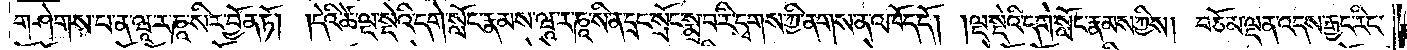གཤེགས་པ་ན་ཝཱ་ར་ཎཱ་སིར་བྱོན་ཏོ། །དེའི་ཚེ་ལྔ་སྡེའི་དགེ་སློང་རྣམས་ཝཱ་ར་ཎཱ་སི་ན་དྲང་སྲོང་སྨྲ་བ་རི་དྭགས་ཀྱི་ནགས་ན་འཁོད་དོ། །ལྔ་སྡེའི་དགེ་སློང་རྣམས་ཀྱིས། བཅོམ་ལྡན་འདས་རྒྱང་རིང་
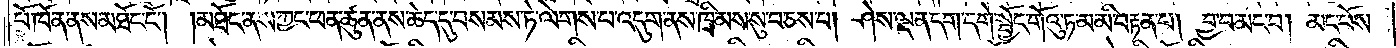པོ་ཁོ་ན་ནས་མཐོང་ངོ༌། །མཐོང་ནས་ཀྱང་ཕན་ཚུན་ནས་ཆེད་དུ་བསམས་ཏེ་ལེགས་པ་འདུག་ནས་ཁྲིམས་སུ་བཅས་པ། ཤེས་ལྡན་དག་དགེ་སྦྱོང་གོའུ་ཏ་མ་མི་བརྟན་པ། བྱ་བ་མང་བ། མང་པོས་
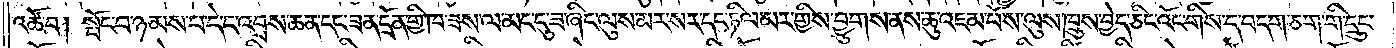འཚོ་བ། སྤོང་བ་ཉམས་པ་དེ་ང་འབྲས་ཆན་དང་ཟན་དྲོན་གྱི་ཁ་ཟས་ལ་མང་དུ་ཟ་ཞིང་ལུས་མར་སར་དང་ཏིལ་མར་གྱིས་བྱུགས་ནས་ཆུ་འཇམ་པོས་ལུས་ཁྲུས་བྱེད་ཅིང་འོང་གིས་ད་བདག་ཅག་གི་དྲུང་
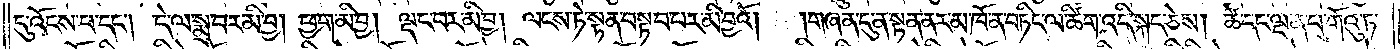དུ་འོངས་པ་དང༌། དེ་ལ་སྨྲ་བར་མི་བྱ། ཕྱག་མི་བྱ། ལྡང་བར་མི་བྱ། ལངས་ཏེ་སྟན་བསྟབ་པར་མི་བྱའོ། །གཞན་དུ་ན་སྟན་ནར་མ་ཁོ་ན་བཏིང་ལ་ཚིག་འདི་སྐད་ཅེས། ཚེ་དང་ལྡན་པ་གོའུ་ཏ་
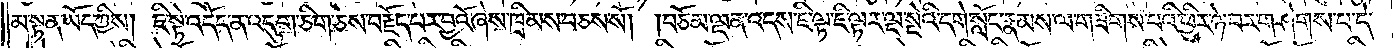མ་སྟན་ཡོད་ཀྱིས། ཇི་སྟེ་འདོད་ན་འདུག་ཅིག་ཅེས་བརྗོད་པར་བྱའོ་ཞེས་ཁྲིམས་བཅས་སོ། །བཅོམ་ལྡན་འདས་ཇི་ལྟ་ཇི་ལྟར་ལྔ་སྡེའི་དགེ་སློང་རྣམས་ལ་གཟིགས་པའི་ཕྱིར་ཉེ་བར་གཤེགས་པ་དེ་
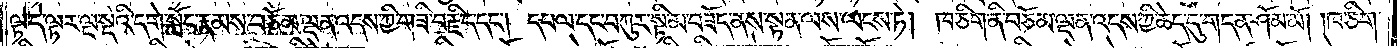ལྟ་དེ་ལྟར་ལྔ་སྡེའི་དགེ་སློང་རྣམས་བཅོམ་ལྡན་འདས་ཀྱི་གཟི་བརྗིད་དང༌། དཔལ་དང་བཀུར་སྟི་མ་བཟོད་ནས་སྟན་ལས་ལངས་ཏེ། ཁ་ཅིག་ནི་བཅོམ་ལྡན་འདས་ཀྱི་ཆེད་དུ་གདན་ཤོམ་མོ། །ཁ་ཅིག་
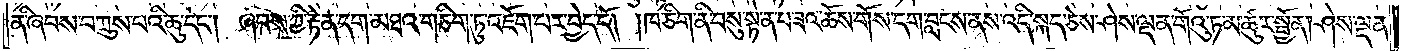ནི་ཞབས་བཀྲུས་པའི་ཆུ་དང༌། ཞབས་ཀྱི་རྟེན་དག་མཐའ་གཅིག་ཏུ་འཇོག་པར་བྱེད་དོ། །ཁ་ཅིག་ནི་བསུ་སྟེ་ན་བཟའ་ཆོས་གོས་དག་བླངས་ནས་འདི་སྐད་ཅེས་ཤེས་ལྡན་གོའུ་ཏ་མ་ཚུར་སྤྱོན། ཤེས་ལྡན་
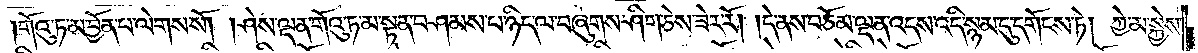།གོའུ་ཏ་མ་བྱོན་པ་ལེགས་སོ། །ཤེས་ལྡན་གོའུ་ཏ་མ་སྟན་བཤམས་པ་ཉིད་ལ་བཞུགས་ཤིག་ཅེས་ཟེར་རོ། །དེ་ནས་བཅོམ་ལྡན་འདས་འདི་སྙམ་དུ་དགོངས་ཏེ། ཀྱེ་མ་སྐྱེས་
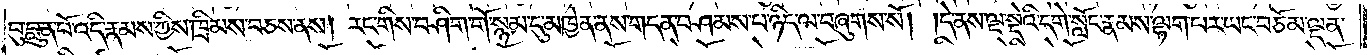བུ་བླུན་པོ་འདི་རྣམས་ཀྱིས་ཁྲིམས་བཅས་ནས། རང་གིས་བཤིག་གོ་སྙམ་དུ་མཁྱེན་ནས་གདན་བཤམས་པ་ཉིད་ལ་བཞུགས་སོ། །དེ་ནས་ལྔ་སྡེའི་དགེ་སློང་རྣམས་ལྷག་པར་ཡང་བཅོམ་ལྡན་
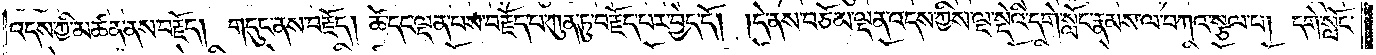འདས་ཀྱི་མཚན་ནས་བརྗོད། གདུང་ནས་བརྗོད། ཚེ་དང་ལྡན་པས་བརྗོད་པ་ཀུན་ཏུ་བརྗོད་པར་བྱེད་དོ། །དེ་ནས་བཅོམ་ལྡན་འདས་ཀྱིས་ལྔ་སྡེའི་དགེ་སློང་རྣམས་ལ་བཀའ་སྩལ་པ། དགེ་སློང་
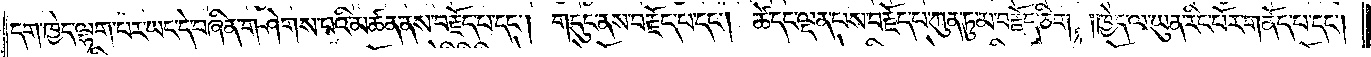དག་ཁྱེད་ལྷག་པར་ཡང་དེ་བཞིན་གཤེགས་པའི་མཚན་ནས་བརྗོད་པ་དང༌། གདུང་ནས་བརྗོད་པ་དང༌། ཚེ་དང་ལྡན་པས་བརྗོད་པ་ཀུན་ཏུ་མ་བརྗོད་ཅིག །ཁྱེད་ལ་ཡུན་རིང་པོར་གནོད་པ་དང༌།
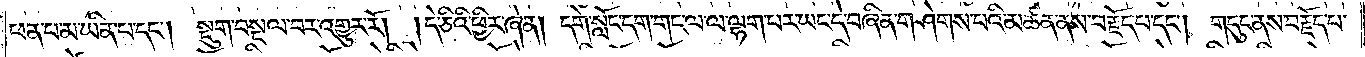ཕན་པ་མ་ཡིན་པ་དང༌། སྡུག་བསྔལ་བར་འགྱུར་རོ། །དེ་ཅིའི་ཕྱིར་ཞེ་ན། དགེ་སློང་དག་གང་ལ་ལ་ལྷག་པར་ཡང་དེ་བཞིན་གཤེགས་པའི་མཚན་ནས་བརྗོད་པ་དང༌། གདུང་ནས་བརྗོད་པ་
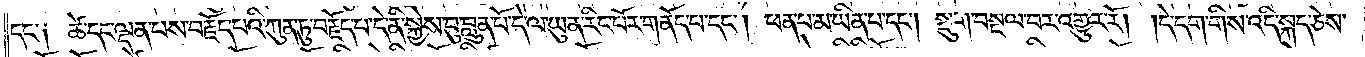དང་༑ ཚེ་དང་ལྡན་པས་བརྗོད་པའི་ཀུན་ཏུ་བརྗོད་པ་དེ་ནི་སྐྱེས་བུ་བླུན་པོ་དེ་ལ་ཡུན་རིང་པོར་གནོད་པ་དང༌། ཕན་པ་མ་ཡིན་པ་དང༌། སྡུག་བསྔལ་བར་འགྱུར་རོ། །དེ་དག་གིས་འདི་སྐད་ཅེས་
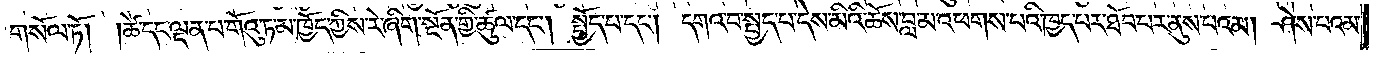གསོལ་ཏོ། །ཚེ་དང་ལྡན་པ་གོའུ་ཏ་མ་ཁྱོད་ཀྱིས་རེ་ཞིག་སྔོན་གྱི་ཚུལ་དང༌། སྤྱོད་པ་དང༌། དགའ་བ་སྤྱད་པ་དེས་མིའི་ཆོས་བླ་མ་འཕགས་པའི་ཁྱད་པར་ཐོབ་པར་ནུས་པའམ། ཤེས་པའམ་
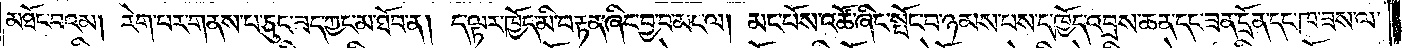མཐོང་བའམ། རེག་པར་གནས་པ་ཅུང་ཟད་ཀྱང་མ་ཐོབ་ན། ད་ལྟར་ཁྱོད་མི་བརྟན་ཞིང་བྱ་བ་མང་ལ། མང་པོས་འཚོ་ཞིང་སྤོང་བ་ཉམས་པས་ད་ཁྱོད་འབྲས་ཆན་དང་ཟན་དྲོན་དང་ཁ་ཟས་ལ་
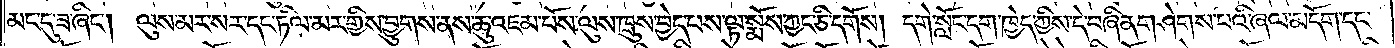མང་དུ་ཟ་ཞིང༌། ལུས་མར་སར་དང་ཏིལ་མར་གྱིས་བྱུགས་ནས་ཆུ་འཇམ་པོས་ལུས་ཁྲུས་བྱེད་པས་ལྟ་སྨོས་ཀྱང་ཅི་དགོས། དགེ་སློང་དག་ཁྱེད་ཀྱིས་དེ་བཞིན་གཤེགས་པའི་ཞལ་མདོག་དང་
